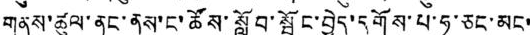གནས་ཚུལ་ནང་ནས་ང་ཚོས་སློབ་སྦྱོང་བྱེད་དགོས་པ་ཧ་ཅང་མང་
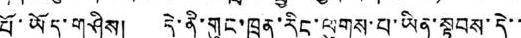པོ་ཡོད་གཤིས། དེ་ནི་གུང་ཁྲན་རིང་ལུགས་པ་ཡིན་སྟབས་དེ་་
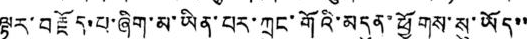ལྟར་བརྗོད་པ་ཞིག་མ་ཡིན་པར་ཀྲུང་གོའི་མདུན་ཕྱོགས་སུ་ཡོད་་
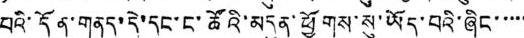པའི་དོན་གནད་དེ་དང་ང་ཚོའི་མདུན་ཕྱོགས་སུ་ཡོད་པའི་ཞིང་་་་་
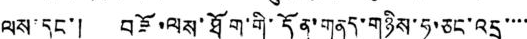ལས་དང་། བཟོ་ལས་ཐོག་གི་དོན་གནད་གཉིས་ཧ་ཅང་འདྲ་་་་
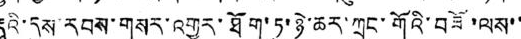རྡུའི་དུས་རབས་གསར་འགྱུར་ཐོག་ཏུ་ཉེ་ཆར་ཀྲུང་གོའི་བཟོ་ལས་་
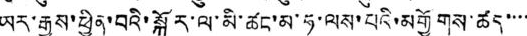ཡར་རྒྱས་ཕྱིན་བའི་སྐོར་ལ་མི་ཚང་མ་ཧ་ལས་པའི་མགྱོགས་ཚད་་་་
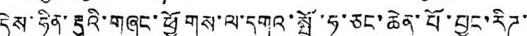དེས་ཧིན་རྡུའི་གཞུང་ཕྱོགས་ལ་དགའ་སྤྲོ་ཧ་ཅང་ཆེན་པོ་བྱུང་རིཌ་
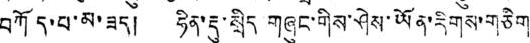བཀོད་པ་མ་ཟད། ཧིན་རྡུ་སྲིད གཞུང་གིས་ཤེས་ཡོན་རིགས་གཅིག
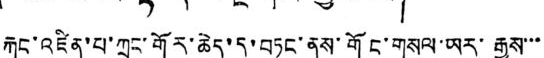རྐང་འཛིན་པ་ཀྲུང་གོར་ཆེད་དུ་བཏང་ནས་གོང་གསལ་ཡར་རྒྱས་་་
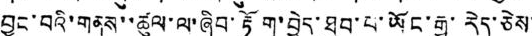བྱུང་བའི་གནས་་ཚུལ་ལ་ཞིབ་རྟོག་བྱེད་ཐུབ་པ་ཡོང་རྒྱུ་རེད་ཅེས་
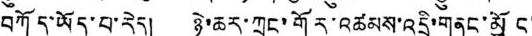བཀོད་ཡོད་པ་རེད། ཉེ་ཆར་ཀྲུང་གོར་འཚམས་འདྲི་གནང་མྱོང་
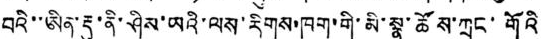བའི་་ཨིན་རྡུ་ནི་ཤིས་ཡའི་ལས་རིགས་ཁག་གི་མི་སྣ་ཚོས་ཀྲུང་གོའི
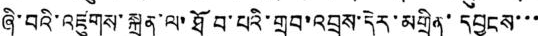ཞི་བའི་འཛུགས་སྐྲུན་ལ་ཐོབ་པའི་གྲུབ་འབྲས་དེར་མགྲིན་དབྱངས་་་
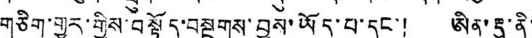གཅིག་གྱུར་གྱིས་བསྟོད་བསྔགས་བྱས་ཡོད་པ་དང་། ཨིན་རྡུ་ནི་
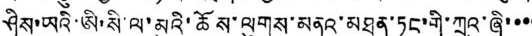ཤིས་ཡའི་ཨི་སི་ལ་མུའི་ཆོས་ལུགས་མནའ་མཐུན་ཏང་གི་ཀྲུའུ་ཞི་་་་
